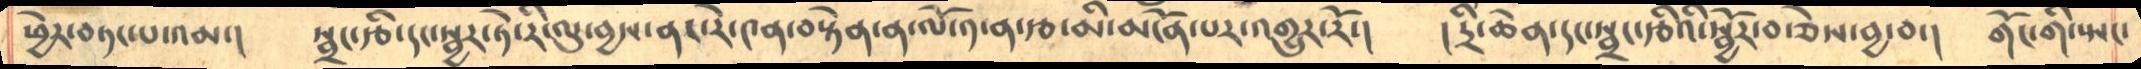ཕྱེར་བཏང་པ་འམ་།    སྦྲང་རྩི་དང་སྦྱར་ཏེ་རི་ལུ་བྱས་ནར་རེ་༤ན་བསྟེན་ན་ལོ་༡་ན་རྩ་མངོན་པར་འགྱུར་རོ་།    ། དྲི་ཆེན་དང་སྦྲང་རྩིའི་སྦྱོར་བ་ཅེས་བྱ་བ་།   གོང་གི་སྤང་
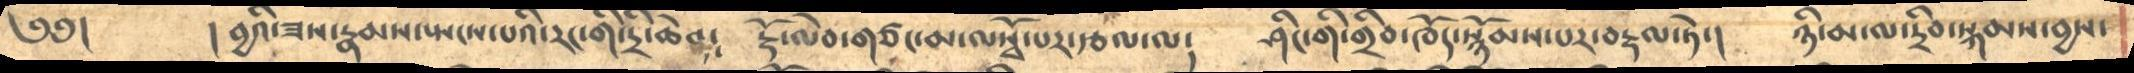༄༅།       ། བྱའི་ཟས་རྣམས་སྤངས་པའི་རང་གི་དྲི་ཆེན༴    རྡོ་ལེབ་གཙང་མ་ལསྭོ་པར་རྩལ་ལ༴    ཤིང་གི་གྲིབ་ཁོད་སྙོམས་པར་བརྡལ་ཏེ་།    ཉི་མ་ལ་དྲིབ་སྐམས་བྱས་
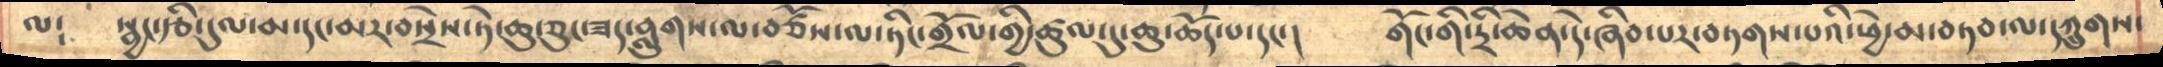ལ༴   སྦྱང་རྩི་དུལ་མ་དང་མར་བསྲེས་ཏེ་ཆུ་ཅུངཟད་བླུགས་ལ་བཙོས་ལ་ཏིང་གྲོལ་གྱི་ཚུལ་དུ་ཆུ་ཆོད་པ་དང་།     གོང་གི་དྲི་ཆེན་དེ་ཞིབ་པར་བཏགས་པའི་ཕྱེ་མ་བཏབ་ལ་དཀྲུགས་
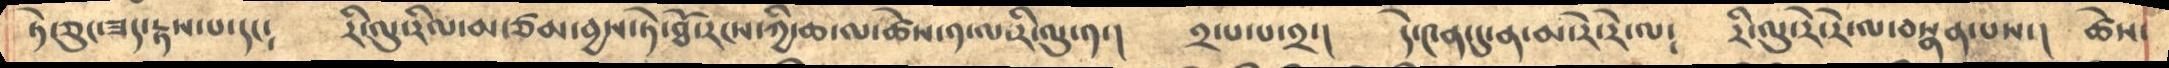ཏེ་ཅུང་ཟད་རྟས་པ་དང༴    རི་ལུ་རིལ་མ་ཙམ་བྱས་ཏེ་ཐོ་རངས་ཀྱི་ཆ་ལ་ཚེས་༡་ལ་རི་ལུ་༡་།   ༢་པ་པ་༢་།   དེ་༤ན་དུ་ན་མ་རེ་རེ་ལ༴   རི་ལུ་རེ་རེ་ལ་བསྣན་པས་།   ཚེས་
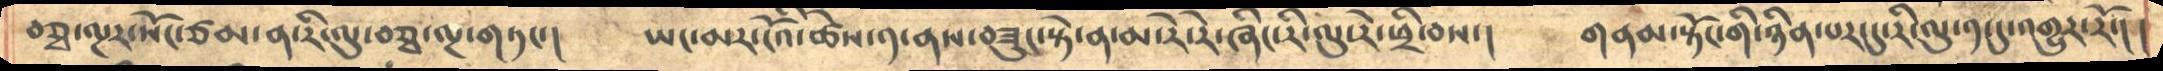བཅྭ་ལྔར་སོང་ཙམ་ན་རི་ལུ་བཅྭ་ལྔ་གཏང་།    ཡང་མར་ངོའི་༡་ནས་བཟུང་སྟེ་ན་མ་རེ་རེ་ཞིང་རི་ལུ་རེ་ཕྲི་བས་།      གནམ་སྟོང་གི་ཉིན་པར་དུ་རི་ལུ་༡་དུ་འགྱུར་རོ་། །
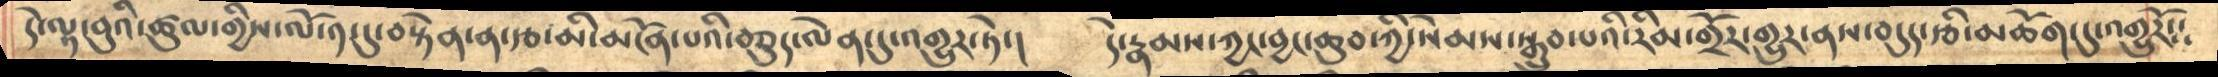དེ་ལྟ་བུའི་ཚུལ་གྱིས་ལོ་༡་དུ་བསྟེན་ན་རྩ་མི་མངོན་པའི་་བཅུད་ལེན་དུ་འགྱུར་ཏེ་།    དེ་རྣམས་ཀྱང་བྱང་ཆུབ་ཀྱི་སེམས་སྒྲུབ་པའི་རིམ་གྲོར་གྱུར་ནས་བདུད་རྩི་མཆོག་དུ་འགྱུརོ༴༴
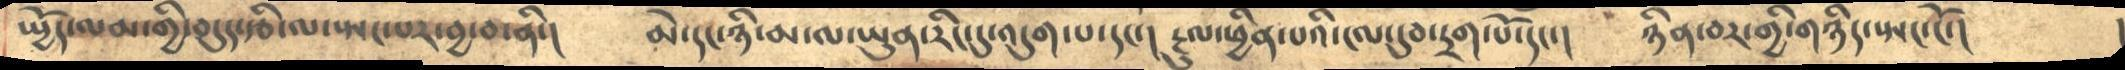ཡྱོད་ལམ་གྱི་བདུད་རྩི་ལ་སྤང་པར་བྱ་བ་ནི་།    མེ་དང་ཉི་མ་ལ་ཡུན་རིང་དུ་འདུག་པ་དང་། རྔུལ་ཕྱིན་པའི་ངལ་དུབ་དྲག་པོ་དང་།   ཉིན་བར་གྱི་གཉིད་སྤང་ངོ་།
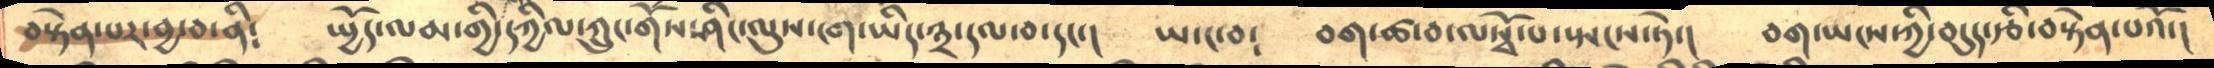བསྟེན་པར་བྱ་བ་ནི༴    ཡྱོད་ལམ་གྱི་དཀྱིལ་ཀྲུང་གོས་ཤིང་ལུས་ངག་ཡིད་༣་དལ་བ་དང་།  ཡ་ང་བ༴   བག་ཚ་བ་ལསྭོ་པ་སྤངས་ཏེ་།   བག་ཡངས་ཀྱི་བདུད་རྩི་བསྟེན་པའོ་།
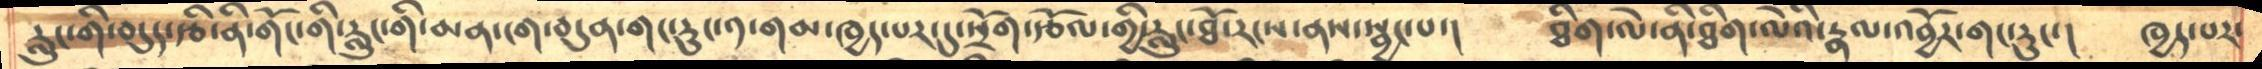རླུང་གི་བདུད་རྩི་ནི་གོང་གི་རླུང་གི་མན་ངག་བདུན་གང་རུང་༡་གམ་ཁྱད་པར་དུ་སྲོག་རྩོལ་གྱི་རླུང་ཐོ་རངས་ནས་སྦྱང་པ་།    ཐིག་ལེ་ནི་ཐིག་ལེའི་རྣལ་འབྱོར་གང་རུང།   ཁྱད་པར་
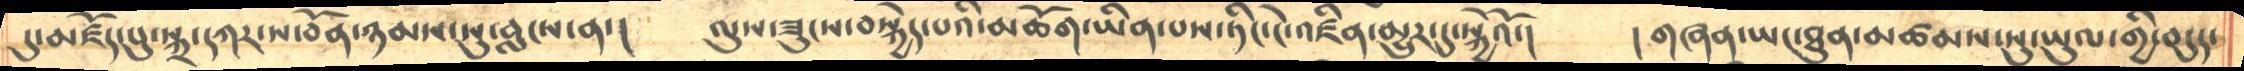དུ་མཛོད་པུ་སྐྲ་དཀར་ས་བོན་ཉམས་སུ་བླངས་ན་།    ལུས་ཟུངས་བསྐྱེད་པའི་མཆོག་ཡིན་པས་ཏིང་ངེ་འཛིན་མྱུར་དུ་སྐྱེའོ་།    །གཞན་ཡང་ཐུན་མཚམས་སུ་ཡུལ་གྱི་བདུད་
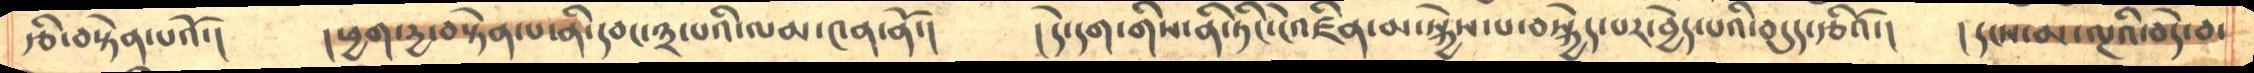རྩི་བསྟེན་པའོ་།    །ཕྱག་དྱ་བསྟེན་པ་ནི་དབང་༣་པའི་ལམ་༤ན་ནོ་།    །དེ་དག་གིས་ནི་ཏིང་ངེ་འཛིན་མ་སྐྱེས་པ་བསྐྱེད་་པར་བྱེད་པའི་བདུད་རྩིའོ་།    །དངས་མ་ལྔའི་བདེ་བ་
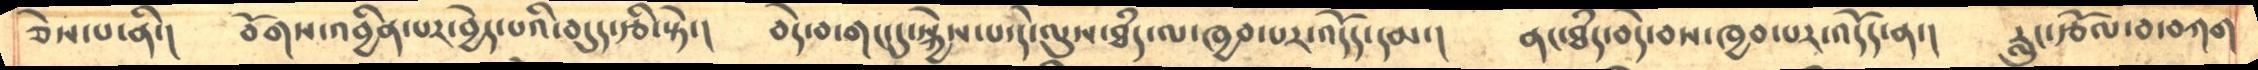ཅེས་པ་ནི་།   བོགས་འབྱིན་པར་བྱེད་པའི་བདུད་རྩི་སྟེ་།  བདེ་བ་གང་དུ་སྐྱེས་པ་དེ་ལུས་ཐཾད་ལ་ཁྱབ་པར་འདོད་དམ་།    ནང་ཐཾད་བདེ་བས་ཁྱབ་པར་འདོད་ན་།   རླུང་རྩོལ་བ་བཀག
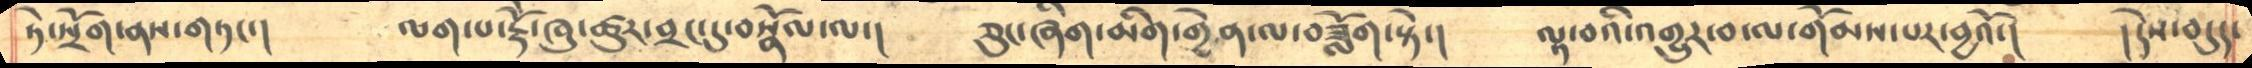ཏེ་སྲོག་ནས་གཏང་།      ལག་པ་རྡོེ་ཁུ་ཚུར་བྲང་དུ་བསྣོལ་ལ་།    ཅུང་ཞིག་མིག་གྱེན་ལ་བཟློག་སྟེ་།    ལྟ་བའི་འགྱུར་བ་ལ་གོམས་པར་བྱའོ་།     །དེས་བདུད་
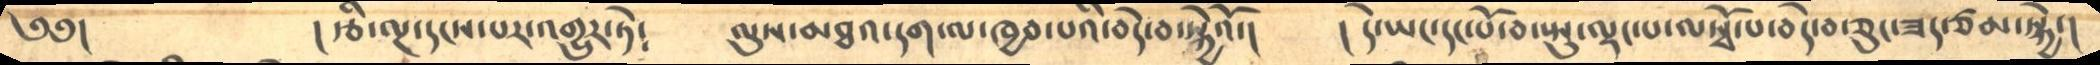༄༅།           །རྩི་ལྔ་དངས་པར་འགྱུར་ཏེ༴     ལུས་མཐའ་དག་ལ་ཁྱབ་པའི་བདེ་བ་སྐྱེའོ་།    །དེ་ཡང་དང་པོ་བ་སྤུ་ལྡང་པ་ལསྭོ་པ་བདེ་བ་ཅུང་ཟད་ཙམ་སྐྱེ་།
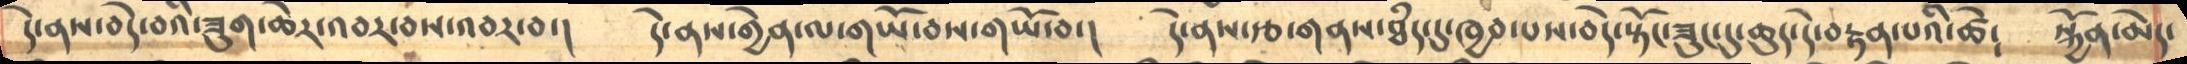དེ་ནས་བདེ་བའི་ཟུག་ཆེར་འབར་བས་འབར་བ་།     དེ་ནས་གྱེན་ལ་གཡོ་བས་གཡོ་བ་།    དེ་ནས་རྩ་གནས་ཐཾད་དུ་ཁྱབ་པས་བདེ་སྟོང་ཟུང་དུ་ཆུད་དེ་བརྟན་པའི་ཚེ༴    སྐྱོན་མེད་
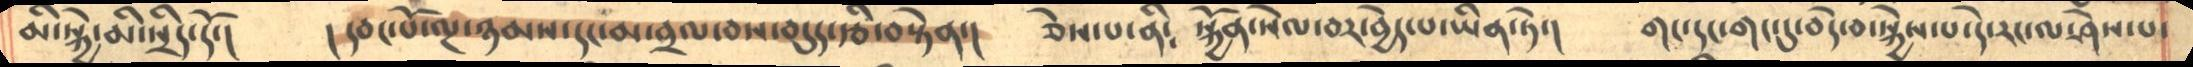མི་སྐྱེ་མི་སྲིད་དོ་།  །དབང་པོ་ལྔ་ཉམས་དང་མ་བྲལ་བས་བདུད་རྩི་བསྟེན་།   ཅེས་པ་ནི༴  སྐྱོན་སེལ་བར་བྱེད་པ་ཡིན་ཏེ་།  གང་དང་གང་དུ་བདེ་བ་སྐྱེས་པ་དེ་རང་ལ་ཤེས་པ་
